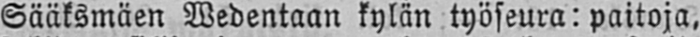Sääksmäen Wedentaan kylän työseura: paitoja,
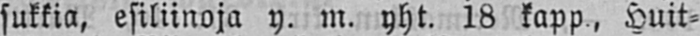sukkia, esiliinoja y. m. yht. 18 kapp, Huit-
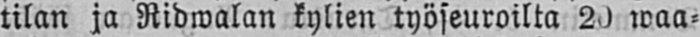tilan ja Ridwalan kylien työseuroilta 20 waa-
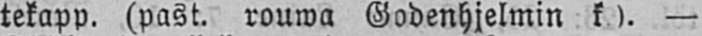tekapp. (past. rouwa Godenhjelmin k.). —
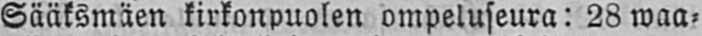Sääksmäen kirkonpuolen ompeluseura: 28 waa-
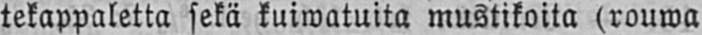tekappaletta sekä kuiwatuita mustikoita (rouwa
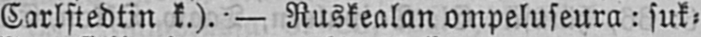Carlstedtin k.). — Ruskealan ompeluseura: suk-
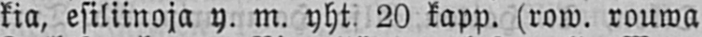kia, esiliinoja y. m. yht. 20 kapp. (row. rouwa
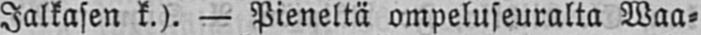Jalkasen k.). — Pieneltä ompeluseuralta Waa-
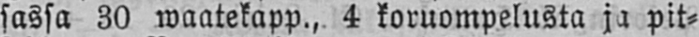sassa 30 waatekapp., 4 koruompelusta ja pit-
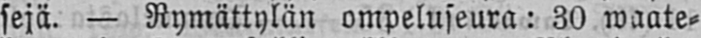sejä. — Rymättylän ompeluseura: 30 waate-
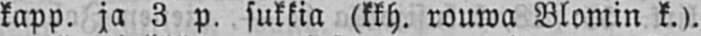kapp. ja 3 p. sukkia (kkh. rouwa Blomin k.).
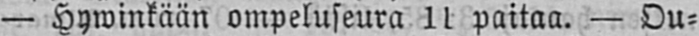— Hywnikään ompeluseura 11 paitaa. — Ou-
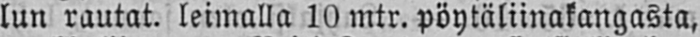lun rautat. leimalla 10 mtr. pöytäliinakangasta,
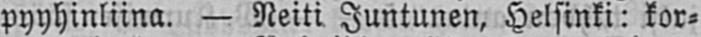pyyhinliina. — Neiti Juntunen, Helsinki: kor-
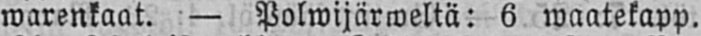warenkaat. — Polwijärweltä: 6 waatekapp.
